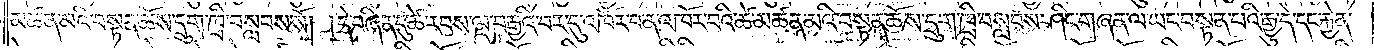མཚན་མའི་བསྟན་ཆོས་དྲུག་ཁྲི་བསླབས་སོ། །དེ་བཞིན་དུ་ཚེ་རབས་ལྔ་བརྒྱའི་བར་དུ་འཁོར་བ་ན་འཁོར་བའི་ཚེ་མཚན་མའི་བསྟན་ཆོས་དྲུག་ཁྲི་བསླབས་ཤིང་གཞན་ལ་ཡང་བསྟན་པའི་རྒྱུ་དེ་དང་རྐྱེན་
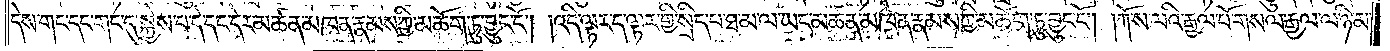དེས་གང་དང་གང་དུ་སྐྱེས་པ་དེ་དང་དེར་མཚན་མཁན་རྣམས་ཀྱི་མཆོག་ཏུ་བྱུང་ངོ༌། །འདི་ལྟར་ད་ལྟར་གྱི་སྲིད་པ་ཐ་མ་ལ་ཡང་མཚན་མཁན་རྣམས་ཀྱི་མཆོག་ཏུ་བྱུང་ངོ༌། །ཀོ་ས་ལའི་རྒྱལ་པོ་གསལ་རྒྱལ་ལ་ཉི་མ་
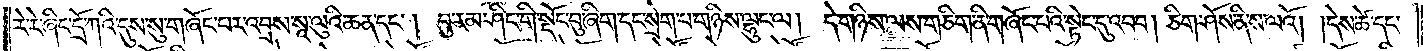རེ་རེ་ཞིང་དྲོ་ཀའི་དུས་སུ་གཞོང་བར་འབྲས་སཱ་ལུའི་ཆན་དང༌། བུ་རམ་ཤིང་གི་སྡོང་བུ་ཞིག་དང་སྲེག་པ་གཉིས་ལྷུང་ལ། དེ་གཉིས་ལས་གཅིག་ནི་གཞོང་པའི་སྟེང་དུ་འབབ། ཅིག་ཤོས་ནི་ས་ལའོ། །དེས་ཚེ་དང་
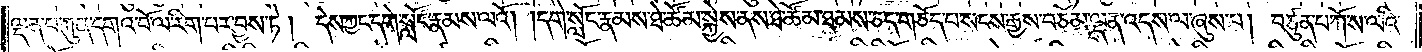ལྡན་པ་ཀུན་དགའ་བོ་ལ་རིག་པར་བྱས་ཏེ། དེས་ཀྱང་དགེ་སློང་རྣམས་ལའོ། །དགེ་སློང་རྣམས་ཐེ་ཚོམ་སྐྱེས་ནས་ཐེ་ཚོམ་ཐམས་ཅད་གཅོད་པ་སངས་རྒྱས་བཅོམ་ལྡན་འདས་ལ་ཞུས་པ། བཙུན་པ་ཀོ་ས་ལའི་
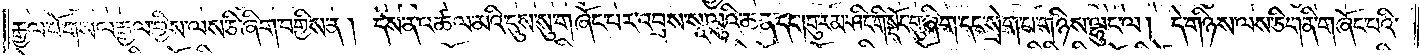རྒྱལ་པོ་གསལ་རྒྱལ་གྱིས་ལས་ཅི་ཞིག་བགྱིས་ན། དེས་ན་འཚལ་མའི་དུས་སུ་གཞོང་པར་འབྲས་སཱ་ལུའི་ཆན་དང༌།བུ་རམ་ཤིང་གི་སྡོང་བུ་ཞིག་དང་སྲེག་པ་གཉིས་ལྷུང་ལ། དེ་གཉིས་ལས་ཅིག་ནི་གཞོང་པའི་
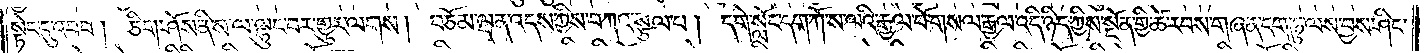སྟེང་དུ་འབབ། ཅིག་ཤོས་ནི་ས་ལ་ལྷུང་བར་གྱུར་ལགས། བཅོམ་ལྡན་འདས་ཀྱིས་བཀའ་སྩལ་པ། དགེ་སློང་དག་ཀོ་ས་ལའི་རྒྱལ་པོ་གསལ་རྒྱལ་འདི་ཉིད་ཀྱིས་སྔོན་གྱི་ཚེ་རབས་གཞན་དག་ཏུ་ལས་བྱས་ཤིང་
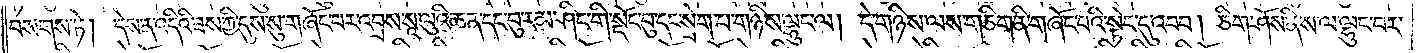བསགས་ཏེ། དེས་ན་འདིའི་ཟས་ཀྱི་དུས་སུ་གཞོང་པར་འབྲས་སཱ་ལའི་ཆན་དང་བུ་རམ་ཤིང་གི་སྡོང་བུ་སྲེག་པ་གཉིས་ལྷུང་ལ། དེ་གཉིས་ལས་གཅིག་ནི་གཞོང་པའི་སྟེང་དུ་འབབ། ཅིག་ཤོས་ནི་ས་ལ་ལྷུང་བར་
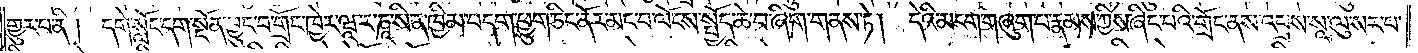གྱུར་པ་ནི། དགེ་སློང་དག་སྔོན་བྱུང་བ་གྲོང་ཁྱེར་ཝཱ་ར་ཎཱ་སི་ན་ཁྱིམ་བདག་ཕྱུག་ཅིང་ནོར་མང་བ་ལོངས་སྤྱོད་ཆེ་བ་ཞིག་གནས་ཏེ། དེའི་མངག་གཞུག་པ་རྣམས་ཀྱིས་ཞིང་པའི་གྲོང་ནས་འབྲས་སཱ་ལུ་སར་པ་
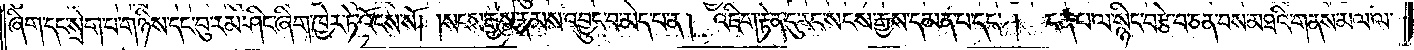ཞིག་དང་སྲེག་པ་གཉིས་དང་བུ་རམ་ཤིང་ཞིག་ཁྱེར་ཏེ་འོངས་སོ། །སངས་རྒྱས་རྣམས་འབྱུང་བ་མེད་པ་ན། འཇིག་རྟེན་དུ་རང་སངས་རྒྱས་དམན་པ་དང༌། ངན་པ་ལ་སྙིང་བརྩེ་བ་ཅན་བས་མཐའི་གནས་མལ་ལ་
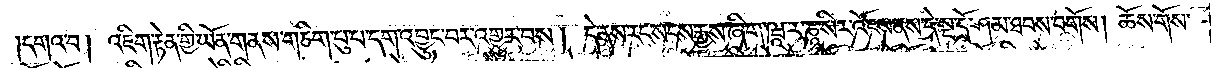དགའ་བ། འཇིག་རྟེན་གྱི་ཡོན་གནས་གཅིག་པུ་པ་དག་འབྱུང་བར་འགྱུར་བས། དེ་ནས་རང་སངས་རྒྱས་ཞིག་ཝཱ་ར་ཎཱ་སིར་འོངས་ནས་དེ་སྔ་དྲོ་ཤམ་ཐབས་བགོས། ཆོས་གོས་
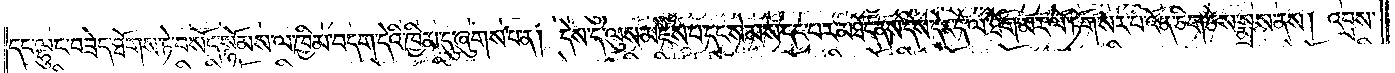དང་ལྷུང་བཟེད་ཐོགས་ཏེ་བསོད་སྙོམས་ལ་ཁྱིམ་བདག་དེའི་ཁྱིམ་དུ་ཞུགས་པ་ན། དེས་དེ་ལུས་མཛེས་པ་དང་སེམས་དང་པར་མཐོང་ནས་དེས་དེར་དེ་ལ་ཐོག་མར་ལོ་ཏོག་སར་པ་འོན་ཅིག་ཅེས་སྨྲས་ནས། འབྲས་
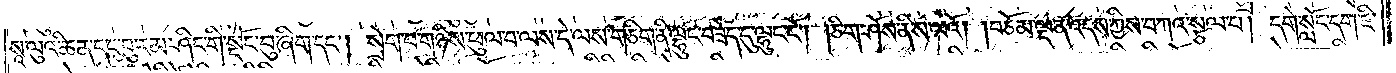སཱ་ལུའི་ཆན་དང་བུ་རམ་ཤིང་གི་སྡོང་བུ་ཞིག་དང༌། སྲེག་པ་གཉིས་ཕུལ་བ་ལས་དེ་ལས་གཅིག་ནི་ལྷུང་བཟེད་དུ་ལྷུང་ངོ༌། །ཅིག་ཤོས་ནི་ས་ལའོ། །བཅོམ་ལྡན་འདས་ཀྱིས་བཀའ་སྩལ་པ། དགེ་སློང་དག་ཇི་
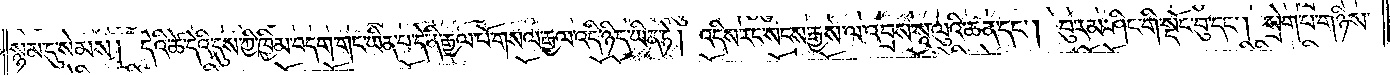སྙམ་དུ་སེམས། དེའི་ཚེ་དེའི་དུས་ཀྱི་ཁྱིམ་བདག་གང་ཡིན་པ་དེ་ནི་རྒྱལ་པོ་གསལ་རྒྱལ་འདི་ཉིད་ཡིན་ཏེ། འདིས་རང་སངས་རྒྱས་ལ་འབྲས་སཱ་ལུའི་ཆན་དང༌། བུ་རམ་ཤིང་གི་སྡོང་བུ་དང༌། སྲེག་པ་གཉིས་
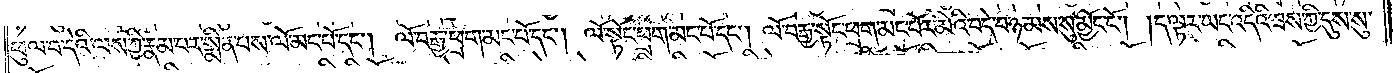ཕུལ་བ་དེའི་ལས་ཀྱི་རྣམ་པར་སྨིན་པས་ལོ་མང་པོ་དང༌། ལོ་བརྒྱ་ཕྲག་མང་པོ་དང༌། ལོ་སྟོང་ཕྲག་མང་པོ་དང༌། ལོ་བརྒྱ་སྟོང་ཕྲག་མང་པོར་མིའི་བདེ་བ་ཉམས་སུ་མྱོང་ངོ༌། །ད་ལྟར་ཡང་འདིའི་ཟས་ཀྱི་དུས་སུ་
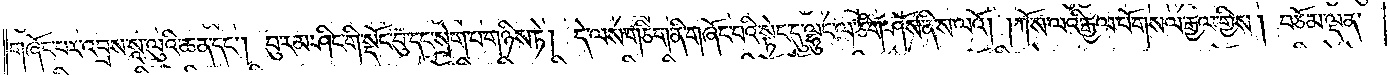གཞོང་པར་འབྲས་སཱ་ལུའི་ཆན་དང༌། བུ་རམ་ཤིང་གི་སྡོང་བུ་དང་སྲེག་པ་གཉིས་ཏེ། དེ་ལས་གཅིག་ནི་གཞོང་པའི་སྟེང་དུ་ལྷུང་ལ་ཅིག་ཤོས་ནི་ས་ལའོ། །ཀོ་ས་ལའི་རྒྱལ་པོ་གསལ་རྒྱལ་གྱིས། བཅོམ་ལྡན་
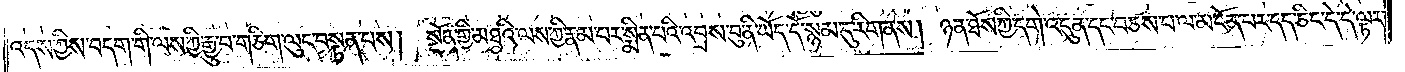འདས་ཀྱིས་བདག་གི་ལས་ཀྱི་རྒྱུ་བ་གཅིག་ལུང་བསྟན་པས། སྔོན་གྱི་མཐའི་ལས་ཀྱི་རྣམ་པར་སྨིན་པའི་འབྲས་བུ་ནི་ཡོད་དོ་སྙམ་དུ་རིག་ནས། ཉན་ཐོས་ཀྱི་དགེ་འདུན་དང་བཅས་པ་ལ་མངོན་པར་དད་ཅིང་དེ་དེ་ལྟར་
